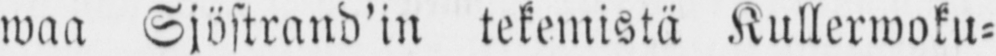waa Sjöstrand'in tekemistä Kullerwoku-
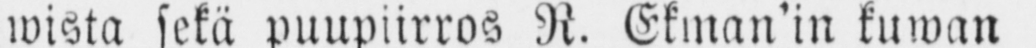wista sekä puupiirros R. Ekman'in kuwan
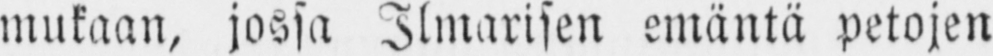mukaan, jossa Ilmarisen emäntä petojen
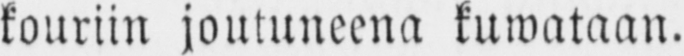kouriin joutuneena kuwataan.
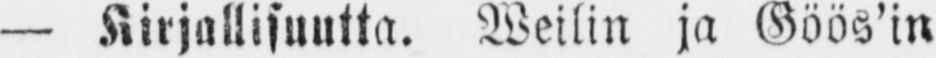— Kirjallisuutta. Weilin ja Göös'in
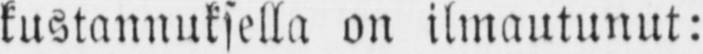kustannuksella on ilmautunut:
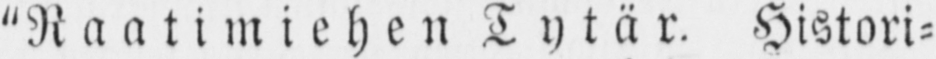"Raatimiehen Tytär. Histori-
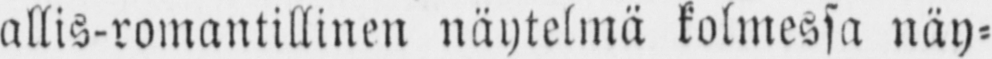allis-romantillinen näytelmä kolmessa näy-
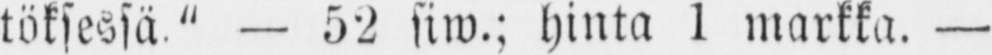töksessä " — 52 siw.; hinta 1 markka. —
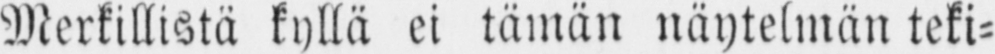Merkillistä kyllä ei tämän näytelmän teki-
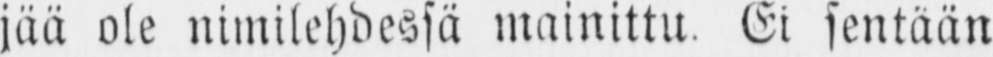jää ole nimilehdessä mainittu. Ei sentään
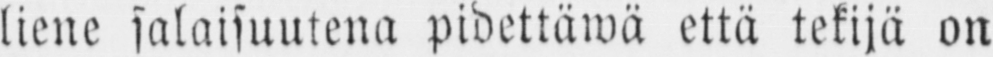liene salaisuutena pidettäwä että tekijä on
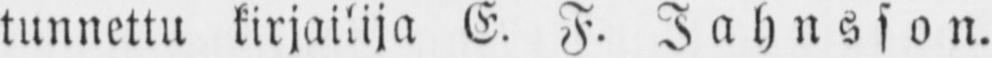tunnettu kirjailija E. F. Jahnsson.
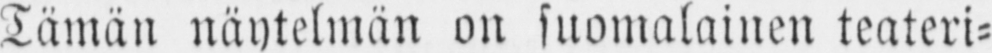Tämän näytelmän on suomalainen teateri-
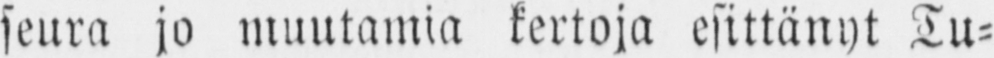seura jo muutamia kertoja esittänyt Tu-
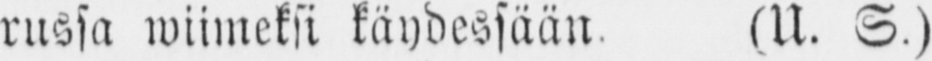russa wiimeksi käydessään (U. S.)
